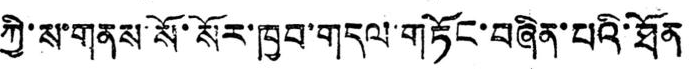ཀྱི་ས་གནས་སོ་སོར་ཁྱབ་གདལ་གཏོང་བཞིན་པའི་ཐོན
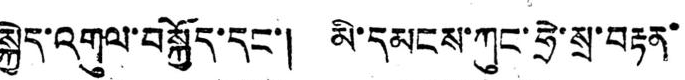སྐྱེད་འགུལ་བསྐྱོད་དང་། མི་དམངས་ཀུང་ཧྲེ་སྲ་བརྟན་
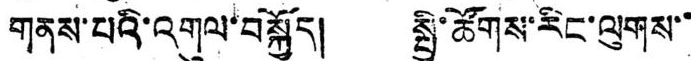གནས་པའི་འགུལ་བསྐྱོད། སྤྱི་ཚོགས་རིང་ལུགས་་
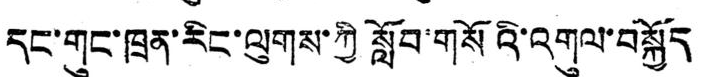དང་གུང་ཁྲན་རིང་ལུགས་ཀྱི སློབ་གསོའི་འགུལ་བསྐྱོད
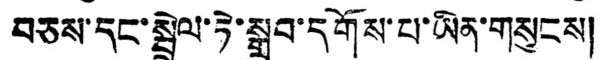བཅས་དང་སྦྲེལ་ཏེ་སྒྲུབ་དགོས་པ་ཡིན་གསུངས།
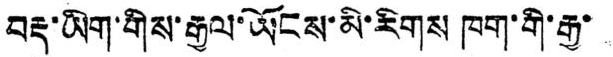བརྡ་ཡིག་གིས་རྒྱལ་ཡོངས་མི་རིགས ཁག་གི་རྒྱ་
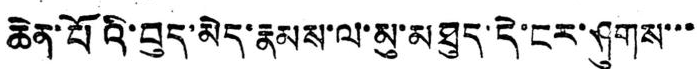ཆེན་པོའི་བུད་མེད་རྣམས་ལ་མུ་མཐུད་དེ་ངར་ཤུགས་་་
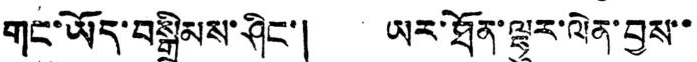གང་ཡོད་བསྒྲིམས་ཤིང་། ཡར་ཐོན་ལྷུར་ལེན་བྱས་་
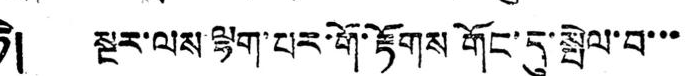ཏེ། སྔར་ལས་ལྷག་པར་གོ་རྟོགས གོང་དུ་སྤེལ་བ་་་
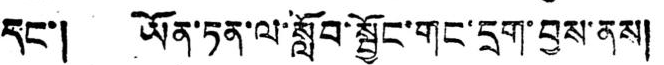དང་། ཡོན་ཏན་ལ་སློབ་སྦྱོང་གང་དྲག་བྱས་ནས།
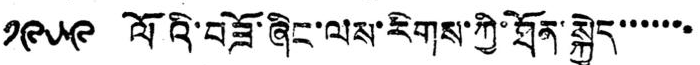༡༩༥༩ ལོའི་བཟོ་ཞིང་ལས་རིགས་ཀྱི་ཐོན་སྐྱེད་་་་་་་
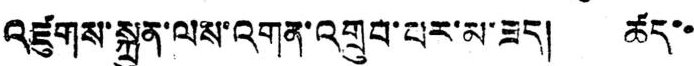འཛུགས་སྐྲུན་ལས་འགན་འགྲུབ་པར་མ་ཟད། ཚད་་
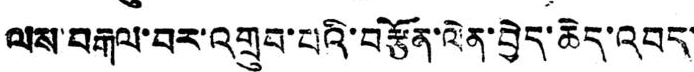ལས་བརྒལ་བར་འགྲུབ་པའི་བརྩོན་ལེན་བྱེད་ཆེད་འབད་
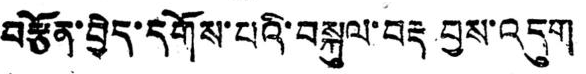བརྩོན་བྱེད་དགོས་པའི་བསྐུལ་བརྡ བྱས་འདུག
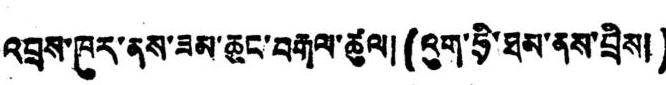འབྲས་ཁུར་ནས་ཟམ་ཆུང་བརྒལ་ཚུལ། (འུག་ཧྲི་ཐམ་ནས་བྲིས།)
